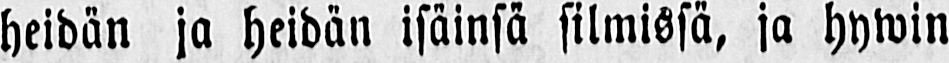heidän ja heidän isäinsä silmissä, ja hywin
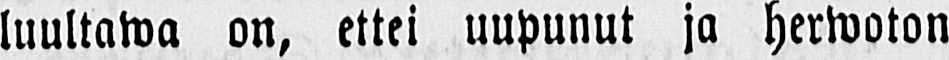luultawa on, ettei uupunut ja herwoton
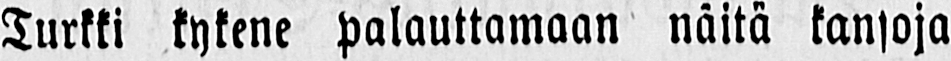Turkki kykene palauttamaan näitä kansoja
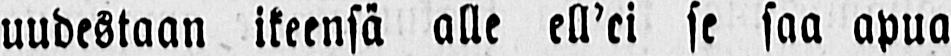uudestaan ikeensä alle ellei se saa apua
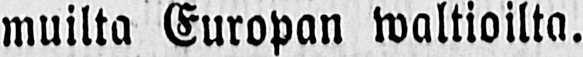muilta Europan waltioilta.
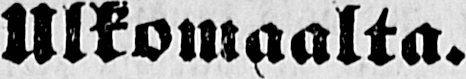Ulkomaalta.
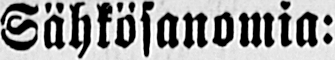Sähkösanomia:
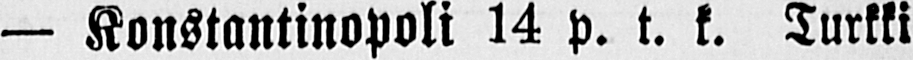— Konstantinopoli 14 p. t. k. Turkki
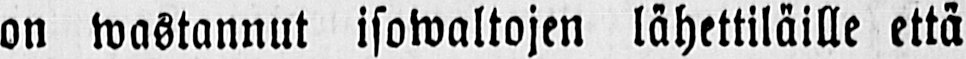on wastannut isowaltojen lähettiläille että
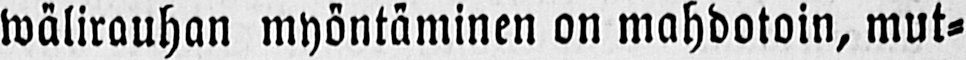wälirauhan myöntäminen on mahdotoin, mut-
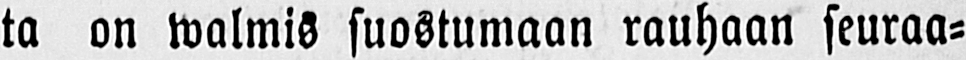ta on walmis suostumaan rauhaan seuraa-
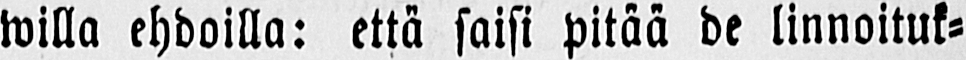willa ehdoilla: että saisi pitää de linnoituk-
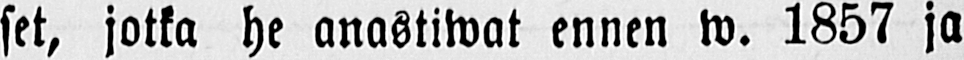set, jotka he anastiwat ennen w. 1857 ja
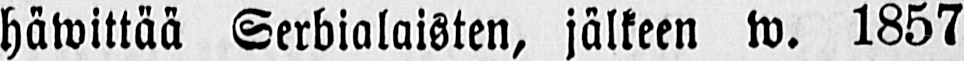häwittää Serbialaisten, jälkeen w. 1857
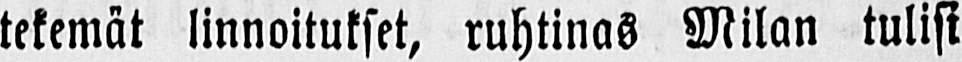tekemät linnoitukset, ruhtinas Milan tulisi
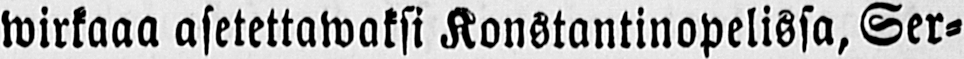wirkaaa asetettawaksi Konstantinopelissa, Ser-
